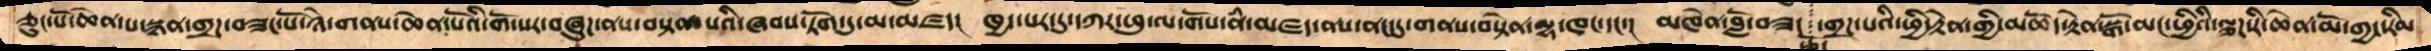ཅུང་པོ་ཆེན་པ་སྙན་གྲཌ་བཟང་པོ་ཉེ་གནས་ཆེན་པོའི་གོ་སར་བཞུཌ་ནས་བསྟན་པའི་ཞབས་ཏོག་དུ་མ་མཛད། ཁྱད་པར་དུ་དཀར་ཕུ་ལ་གོས་ནཾ་མཛད་ནས་ནང་དུ་གནས་བསྟེན་ལྷ་ཁང་དང་།  མཁེན་བློ་བཟང་གྲཌ་པའི་ཕྱི་རྟེན་གྱི་མཆོད་རྟེན་སྒོ་མང་ཕྱིའི་ལྕཌ་རི་ཆེན་མོ་གྱང་རིམ་
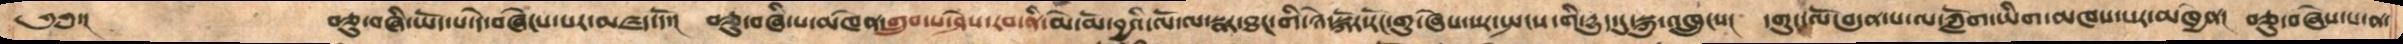༄༅་།       བཅུ་བཞི་ཡོད་པ་དེ་བཞེངས་པར་མཛད་དོ་།   བཅུ་བཞི་པ་མཁེན་གྲུབ་པ་ཤེས་རབ་ནི་མེ་མོ་བྱའི་ལོ་ལ་སྣར་ཐང་གི་ཉེ་སྐོར་རོང་གུ་ཞེས་པར་སྤངས་གི་དྱུད་དུ་སྐུ་འཁྲུངས།   དགུང་ལོ་བདུན་པ་ལ་ཀློག་ཡིག་མཁས་པར་མཁྱེན།   བཅུ་བཞེས་པ་ན་
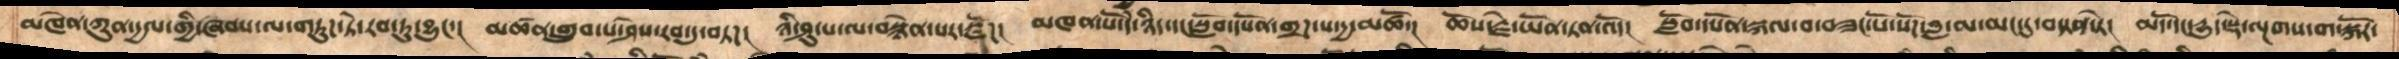མཁེན་ཀུན་དྱལ་གྱི་ཞབས་ལ་གཏུཌ་ཏེ་རབ་ཏུ་བྱུང་།  མཚན་གྲུབ་པ་ཤེས་རབ་དུ་བཏཌ།  ཉི་ཤུ་པ་ལ་བསྙེན་པར་སྫོཌ།  མཁན་པོ་དེ་ཉིད་དང་སློབ་དཔོན་གྲཌ་པ་དྱ་མཚོ་།  ཆོས་རྗེ་ཡོན་ཏན་འོད།  སློབ་དཔོན་སྐལ་བ་བཟང་པོ་སོཌ་བླ་མ་མང་དུ་བསྟན་ཏེ།  མདོ་དང་དྱུད་སྡེ་ལྔགས་ག་སྐོར་
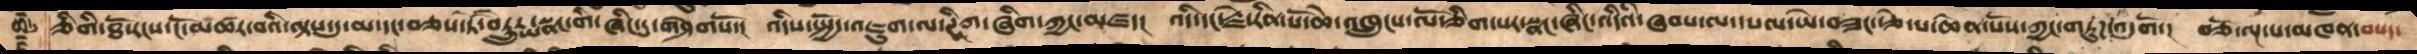ཅིགི་ཐོ་རངས་ངོ་མཚར་བའི་ལྟས་དུ་མ་དང་བཅས་ཏེ་བཻཌྲུརྱ་སྣང་གི་ཞིང་དུ་གཤེགསོ། འདིས་སྤྱོད་འཇུག་ལ་ཊཱིཀ་ཞིག་ཀྱང་མཛད། འདི་དང་རྗེ་རིན་པོ་ཆེ་འཁྲུངས་ལོ་ཅིག་པར་སྣང་ཞིང་འདིའི་ཞབས་ལ་དཔལ་ཡེ་བཟང་རྩེ་པ་ཆེན་པོས་ཀྱང་གཏུཌ་འདུགོ་། བཅོ་ལྔ་པ་མཁན་བསད་
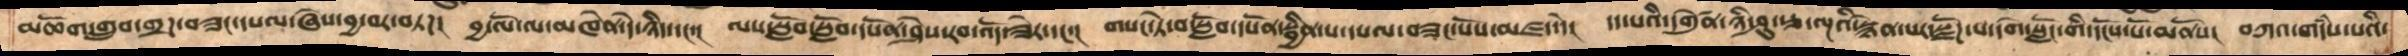མཆོག་གྲུབ་གྲཌ་བཟང་དཔལ་ཞེས་བྱ་བར་བཏཌ།  བྱ་ལོ་ལ་མཁེན་དེ་ཉིད་དང་།  ལས་སློབ་སློབ་དཔོན་ཤེས་རབ་འོད་ཟེར་དང་།  གསང་ཏེ་བ་སློབ་དཔོན་སྦྱིན་པ་དཔལ་བཟང་པོས་མཛད་དེ།  དད་པའི་དགེུན་ཉི་ཤུ་རྩ་ལྔའི་་སྙེན་པར་སྫོཌ་པ་དགེ་སློང་གི་དངོས་པོ་མནོས།  བཀའ་གདཾས་པའི་
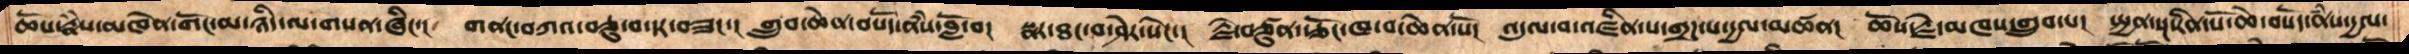ཆོས་རྣཾས་མཁེན་གོང་མ་ཉིད་ལ་གསན་ཞིང་།  གནང་དཀའ་བཅུ་བ་དར་བཟང་།  གྲུབ་ཆེན་བསོད་ནཾས་བློ་བ།  སྣར་ཐང་བ་ཤེར་སེང་།  རྗེ་བཙུན་རྩོང་ཁ་པ་ཆེན་པོ།  འདུལ་བ་འཛིན་པ་གྲཌ་པ་དྱལ་མཚན།  ཆོས་རྗེ་མཁས་གྲུབ་པ། སྤྱན་སྔ་རིན་པོ་ཆེ་བསོད་ནཾས་དྱལ་
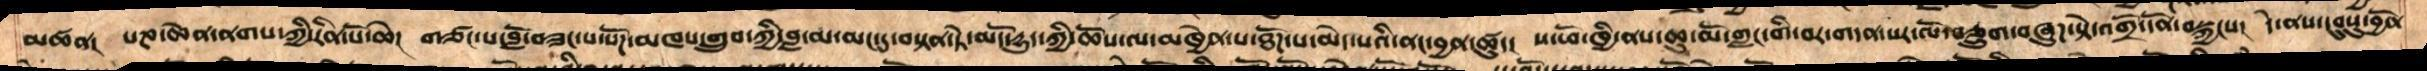མཚན།  པཎ་ཆེན་ནགས་ཀྱི་རིན་པོ་ཆེ། གཙང་པ་བློ་བཟང་པ་སོཌ་མཁས་གྲུབ་ཀྱི་བླ་མ་མང་དུ་བསྟན་ཏེ་མདོ་དྱུད་ཀྱི་ཆོས་ལ་མཁྱེན་པ་ཐོཌ་པ་མེད་པའི་ནང་བྱན་ཚུད། ས་ཕོ་ཁྱི་ནས་ཆུ་མོ་གླང་གི་བར་གདན་སར་ལོ་བཅྲུག་བཞུཌ་སྟེ་འགྲོ་དོན་བསྐྱངས། དེ་ནས་དབུསུ་བྱོན་
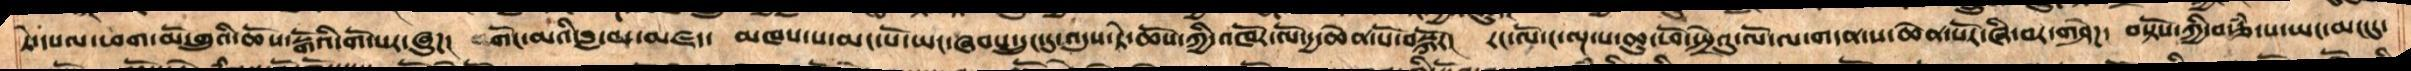ཏེ་དཔལ་ཕག་མོ་གྲུའི་ཆོས་སྒོའི་གོ་སར་ཞུཌ།  གོང་མའི་བླ་མ་མཛད་  མཁས་པ་མང་པོ་ཡང་ཞབས་དྲུང་དུ་འདུས་ཏེ་ཆོས་ཀྱིའཁོར་ལོ་དྱ་ཆེན་པོ་བསྐོར།  རང་ལོ་ང་ལྔ་པ་ཆུ་ཕོ་སྤྲེའུ་ལོ་ལ་གདན་ས་ཆེན་པོར་ཞི་བར་གཤེཌ།  བསྟོས་ཀྱི་བརྩཾ་པ་ཡང་མང་དུ་
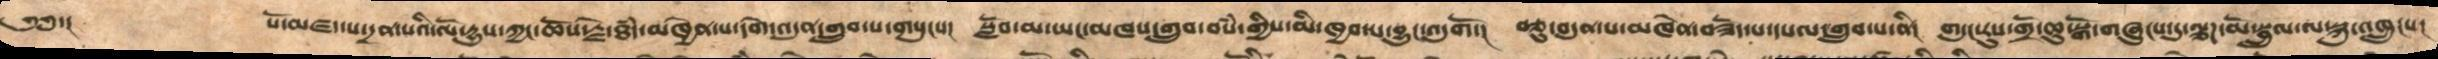༄༅་།      པོ་མཛད་པ་དྲན་པའི་ལོ་དྱུས་ཀྱང་ཆོས་རྗེ་ཐཾད་མཁྱེན་པ་དགེ་འདུན་གྲུབ་པ་གསུངས།  སློབ་མ་ཡང་མཁས་གྲུབ་བསཾ་གྱིས་མི་ཁྱབ་པ་བྱུང་འདུགོ་།  བཅུ་བདུན་པ་མཁེན་བཟོད་པ་དཔལ་གྲུབ་པ་ནི།  གདུང་རུས་གྲོ་ཆུ་སྒོ་གཞུངས་དུ་ལྕཌ་མོ་སྦྲུལ་ལ་སྐུ་འཁྲུངས།
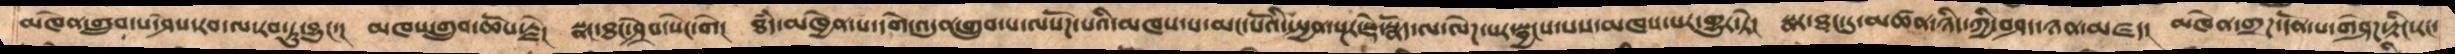མཁེན་གྲུབ་པ་ཤེས་རབ་ལ་རབ་ཏུ་བྱུང་།  མཁས་གྲུབ་ཆོས་རྗེ། སྣང་ཐང་ཤྲེབ་སེང་གེ།  ཐཾད་མཁྱེན་པ་དགེ་འདུན་གྲུབ་པ་ལསོཌ་པའི་མཁས་པ་མང་པོའི་སྤྱན་སྔར་སྡེ་སྣོད་ལ་ལེཌ་པར་སྦྱངས་པས་མཁས་པར་གྱུར་ཏེ།  སྣར་ཐང་དུ་མཚན་ཉིད་ཀྱི་བཤད་ཉན་མཛད།  མཁེན་གྲཌ་དོན་པ་གཤེཌ་རྟིང་རང་
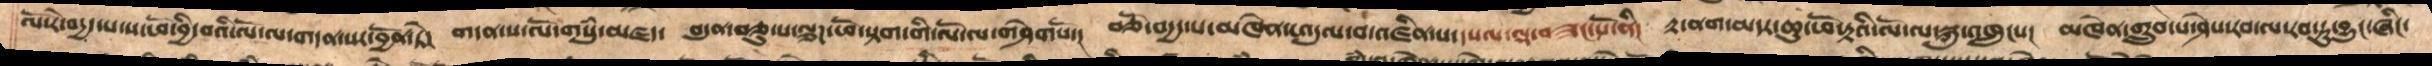ལོ་རེ་བདྱད་པ་ས་ཕོ་བྱི་བ་ལོ་ལ་གདན་སར་བྱོན་ཏེ།  གདན་ས་ལོ་གསུཾ་མཛད་  བདུན་བཅུ་པ་ལྕཌ་ཕོ་སྟག་གི་ལོ་ལ་གཤེགསོ།  བཅོ་བདྱད་པ་མཁེན་འདུལ་བ་འཛིན་པ་དཔལ་ལྡ་བཟང་པོ་ནི།  རྟ་ནག་མདར་ཆུ་ཕོ་རྟའི་ལོ་ལ་སྐུ་འཁྲུངས།  མཁེན་གྲུབ་པ་ཤེས་རབ་ལ་རབ་ཏུ་བྱུང་ཞིང་
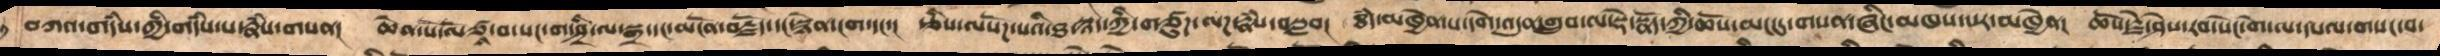བཀའ་གདཾས་ཀྱི་གདཾས་པ་རྣཾས་གསན།  ཆེན་པོ་ལོཙཱ་བ་སང་ག་ཤྲཱི་ལ་སྒྲ་དང་མངོན་བརྗོད་དང་སྙེན་ངག་དང་།  རྩིས་ལསོཌ་པའི་ཐ་སྙེད་ཀྱི་གཙུཌ་ལཌ་རྣཾས་བསླབ།  ཐཾད་མཁྱེན་པ་དགེ་འདུན་གྲུབ་ལ་སྡེ་སྣོད་ཀྱི་ཆོས་མང་དུ་གསན་ཞིང་མཁས་པར་མཁྱེན།  ཆོས་རྗེ་ཤེས་རབ་སེང་གེ་ལ་དཔལ་གསང་བ་
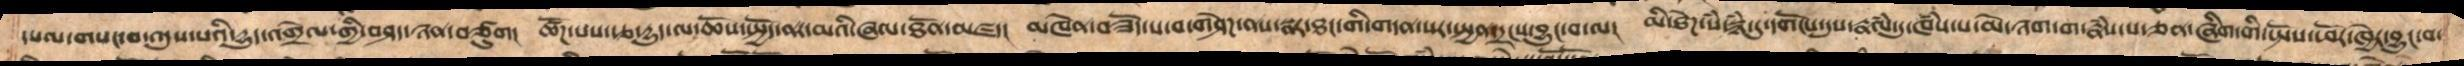དཔལ་གསང་བ་འདུས་པའི་དྱུད་འགྲེལ་གྱི་བཤད་ཉན་བཙུག།  ཚོཌ་པས་རྩ་དྱུད་ལ་ཆོས་སྤྱོད་ནར་མའི་ཞལ་ཐོན་མཛད།  མཁེན་བཟོད་པ་བ་གཤེཌ་ནས་སྣར་ཐང་གི་གདན་སར་སྤྱན་འདྲངས་བྱུང་བ་ལ།  མི་ཐེཌ་སཾ་སྙཾ་དུ་དགོངས་དུས་རྣལཾ་དུ་ཁཾས་པ་མེ་ཉག་ག་རྣཾས་པ་ཅན་ཞིག་གི་སྤོས་ཕོར་ཁྱེར་བྱུང་བ་
